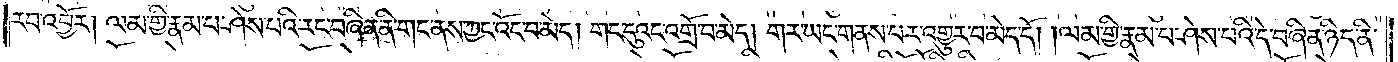རབ་འབྱོར། ལམ་གྱི་རྣམ་པ་ཤེས་པའི་རང་བཞིན་ནི་གང་ནས་ཀྱང་འོང་བ་མེད། གང་དུའང་འགྲོ་བ་མེད། གར་ཡང་གནས་པར་འགྱུར་བ་མེད་དོ། །ལམ་གྱི་རྣམ་པ་ཤེས་པའི་དེ་བཞིན་ཉིད་ནི་
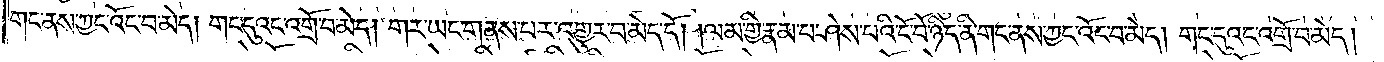གང་ནས་ཀྱང་འོང་བ་མེད། གང་དུའང་འགྲོ་བ་མེད། གར་ཡང་གནས་པར་འགྱུར་བ་མེད་དོ། །ལམ་གྱི་རྣམ་པ་ཤེས་པའི་ངོ་བོ་ཉིད་ནི་གང་ནས་ཀྱང་འོང་བ་མེད། གང་དུའང་འགྲོ་བ་མེད།
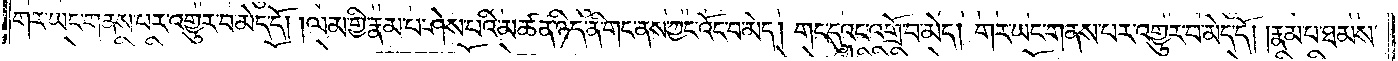གར་ཡང་གནས་པར་འགྱུར་བ་མེད་དོ། །ལམ་གྱི་རྣམ་པ་ཤེས་པའི་མཚན་ཉིད་ནི་གང་ནས་ཀྱང་འོང་བ་མེད། གང་དུའང་འགྲོ་བ་མེད། གར་ཡང་གནས་པར་འགྱུར་བ་མེད་དོ། །རྣམ་པ་ཐམས་
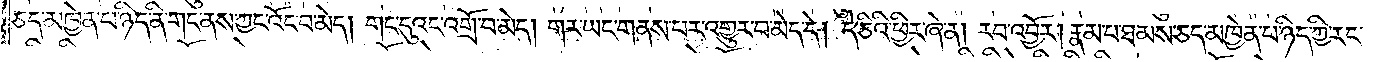ཅད་མཁྱེན་པ་ཉིད་ནི་གང་ནས་ཀྱང་འོང་བ་མེད། གང་དུའང་འགྲོ་བ་མེད། གར་ཡང་གནས་པར་འགྱུར་བ་མེད་དེ། དེ་ཅིའི་ཕྱིར་ཞེ་ན། རབ་འབྱོར། རྣམ་པ་ཐམས་ཅད་མཁྱེན་པ་ཉིད་ཀྱི་རང་
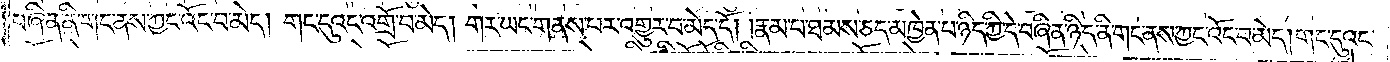བཞིན་ནི་གང་ནས་ཀྱང་འོང་བ་མེད། གང་དུའང་འགྲོ་བ་མེད། གར་ཡང་གནས་པར་འགྱུར་བ་མེད་དོ། །རྣམ་པ་ཐམས་ཅད་མཁྱེན་པ་ཉིད་ཀྱི་དེ་བཞིན་ཉིད་ནི་གང་ནས་ཀྱང་འོང་བ་མེད། གང་དུའང་
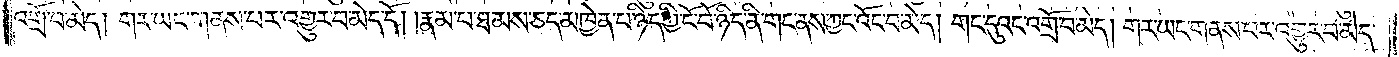འགྲོ་བ་མེད། གར་ཡང་གནས་པར་འགྱུར་བ་མེད་དོ། །རྣམ་པ་ཐམས་ཅད་མཁྱེན་པ་ཉིད་ཀྱི་ངོ་བོ་ཉིད་ནི་གང་ནས་ཀྱང་འོང་བ་མེད། གང་དུའང་འགྲོ་བ་མེད། གར་ཡང་གནས་པར་འགྱུར་བ་མེད་
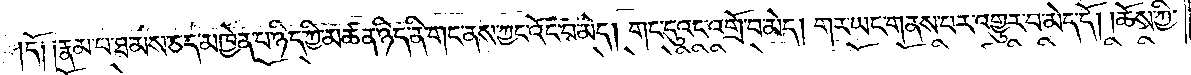དོ། །རྣམ་པ་ཐམས་ཅད་མཁྱེན་པ་ཉིད་ཀྱི་མཚན་ཉིད་ནི་གང་ནས་ཀྱང་འོད་བ་མེད། གང་དུའང་འགྲོ་བ་མེད། གར་ཡང་གནས་པར་འགྱུར་བ་མེད་དོ། །ཆོས་ཀྱི་
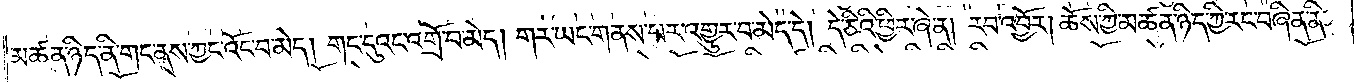མཚན་ཉིད་ནི་གང་ནས་ཀྱང་འོང་བ་མེད། གང་དུའང་འགྲོ་བ་མེད། གར་ཡང་གནས་པར་འགྱུར་བ་མེད་དོ། དེ་ཅིའི་ཕྱིར་ཞེ་ན། རབ་འབྱོར། ཆོས་ཀྱི་མཚན་ཉིད་ཀྱི་རང་བཞིན་ནི་
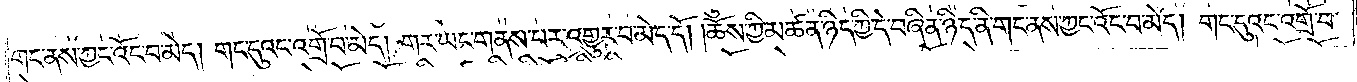གང་ནས་ཀྱང་འོང་བ་མེད། གང་དུའང་འགྲོ་བ་མེད། གར་ཡང་གནས་པར་འགྱུར་བ་མེད་དོ། །ཆོས་ཀྱི་མཚན་ཉིད་ཀྱི་དེ་བཞིན་ཉིད་ནི་གང་ནས་ཀྱང་འོང་བ་མེད། གང་དུའང་འགྲོ་བ་
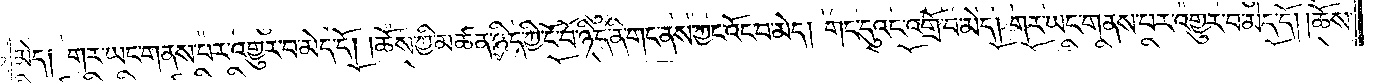མེད། གར་ཡང་གནས་པར་འགྱུར་བ་མེད་དོ། །ཆོས་ཀྱི་མཚན་ཉིད་ཀྱི་ངོ་བོ་ཉིད་ནི་གང་ནས་ཀྱང་འོང་བ་མེད། གང་དུའང་འགྲོ་བ་མེད། གར་ཡང་གནས་པར་འགྱུར་བ་མེད་དོ། །ཆོས་
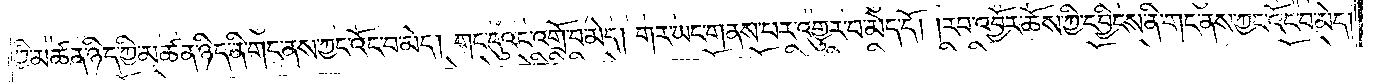ཀྱི་མཚན་ཉིད་ཀྱི་མཚན་ཉིད་ནི་གང་ནས་ཀྱང་འོང་བ་མེད། གང་དུའང་འགྲོ་བ་མེད། གར་ཡང་གནས་པར་འགྱུར་བ་མེད་དོ། །རབ་འབྱོར་ཆོས་ཀྱི་དབྱིངས་ནི་གང་ནས་ཀྱང་འོང་བ་མེད།
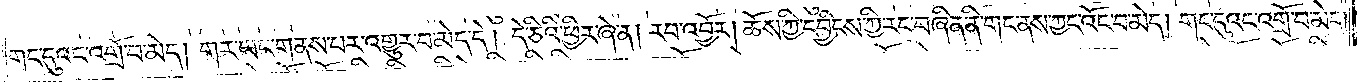གང་དུའང་འགྲོ་བ་མེད། གར་ཡང་གནས་པར་འགྱུར་བ་མེད་དེ། དེ་ཅིའི་ཕྱིར་ཞེ་ན། རབ་འབྱོར། ཆོས་ཀྱི་དབྱིངས་ཀྱི་རང་བཞིན་ནི་གང་ནས་ཀྱང་འོང་བ་མེད། གང་དུའང་འགྲོ་བ་མེད།
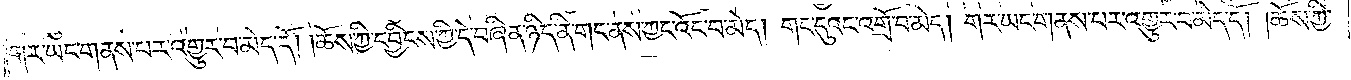གར་ཡང་གནས་པར་འགྱུར་བ་མེད་དོ། །ཆོས་ཀྱི་དབྱིངས་ཀྱི་དེ་བཞིན་ཉིད་ནི་གང་ནས་ཀྱང་འོང་བ་མེད། གང་དུའང་འགྲོ་བ་མེད། གར་ཡང་གནས་པར་འགྱུར་བ་མེད་དོ། །ཆོས་ཀྱི་
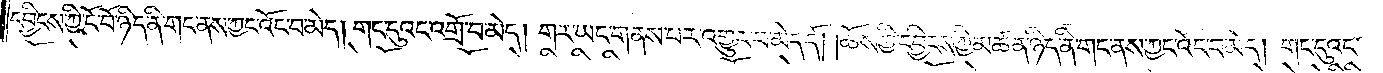དབྱིངས་ཀྱི་ངོ་བོ་ཉིད་ནི་གང་ནས་ཀྱང་འོང་བ་མེད། གང་དུ་འང་འགྲོ་བ་མེད། གར་ཡང་གནས་པར་འགྱུར་བ་མེད་དོ། །ཆོས་ཀྱི་དབྱིངས་ཀྱི་མཚན་ཉིད་ནི་གང་ནས་ཀྱང་འོང་བ་མེད། གང་དུའང་
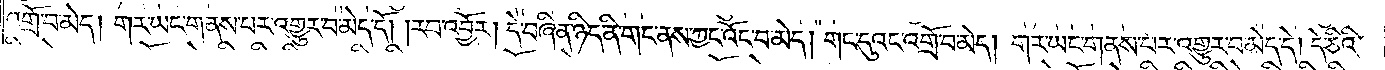འགྲོ་བ་མེད། གར་ཡང་གནས་པར་འགྱུར་བ་མེད་དོ། །རབ་འབྱོར། དེ་བཞིན་ཉིད་ནི་གང་ནས་ཀྱང་འོད་བ་མེད། གང་དུའང་འགྲོ་བ་མེད། གར་ཡང་གནས་པར་འགྱུར་བ་མེད་དེ། དེ་ཅིའི་
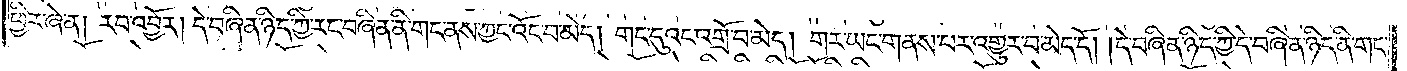ཕྱིར་ཞེ་ན། རབ་འབྱོར། དེ་བཞིན་ཉིད་ཀྱི་རང་བཞིན་ནི་གང་ནས་ཀྱང་འོང་བ་མེད། གང་དུའང་འགྲོ་བ་མེད། གར་ཡང་གནས་པར་འགྱུར་བ་མེད་དོ། །དེ་བཞིན་ཉིད་ཀྱི་དེ་བཞིན་ཉིད་ནི་གང་
